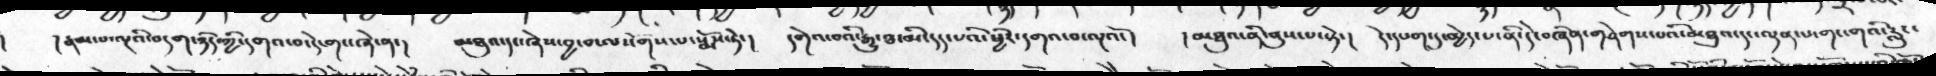།   །རྣམ་པ་ལྔའི་བདག་ཉིད་ཀྱི་དགའ་བ་དེ་གང་ཞེ་ན་།  མཐུའ་དང་ཞེས་བྱ་བ་ལསོགས་པ་སྨོས་ཏེ་།  དགེའ་བའི་རྒྱུ་ཐ་མི་དད་པའི་ཕྱིར་དགའ་བ་ལྔའོ་།  །མཐུའ་ནི་ནུས་པ་སྟེ་།   དེ་དཔག་དུ་མྱེད་པ་ནི་དེ་བཞིན་གཤེགས་པའི་མཐུའ་དང་ལྡན་པ་གང་གའི་རླུང་
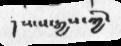། སངས་རྒྱས་ཀྱི་
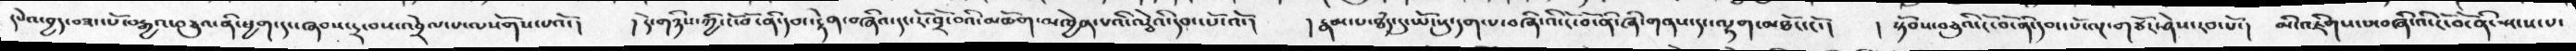དཔེའ་བྱད་བཟང་པོ་བརྒྱའ་བཅུའ་ནི་ཕྱག་དང་ཞབས་དྲ་བས་འབྲེལ་པ་ལསོགས་པའོ་།   །དེ་གཉིས་ཀྱི་ངོ་བོ་ནི་དབང་རྟེན་བཞིའ་དང་རོ་བྲོ་བའི་མཆོག་མཁྱེན་པའི་ལྕེའི་དབང་པོ་འོ་།  །རྣམ་པ་ཐཾད་དུ་ཡོངསུ་དག་པ་བཞི་འི་ངོ་བོ་ནི་ཞི་གནས་དང་ལྷག་མཐོང་ངོ་།   །སྟོབས་བཅུའི་ངོ་བོ་ནི་དབང་པོ་ལྔ་གཙོར་ཤེས་རབ་པོ་།   མི་འཇིགས་པ་བཞི་འི་ངོ་བོ་ནི་སྤངས་པ་
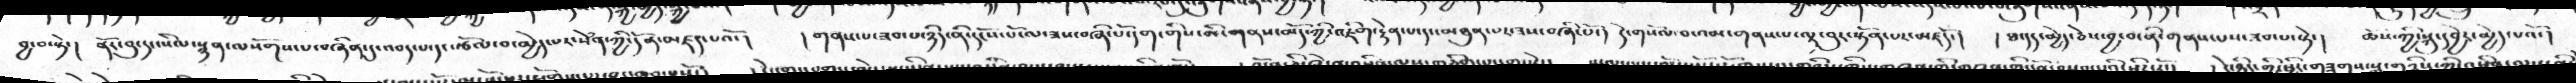བྱ་བ་སྟེ་།  ནོར་བུ་དང་སིལ་སྙན་ལསོགས་པ་བཞིན་དུ་འབད་པ་དང་རྩོལ་བ་མྱེད་པར་སེཾན་ཀྱི་དོན་མཛད་པའོ་།   །གནས་པ་ཟབ་པ་ཉིད་ནི་དངོས་པོ་ལ་ཟས་བཞི་པོ་དག་གིས་མི་གནས་མོད་ཀྱི་འཇིག་རྟེན་པ་དང་མཐུན་པར་ཟས་བཞི་པོ་།   དེ་གསོལ་བ་འམ་གནས་པ་ལྟ་བུར་སྟོན་པར་མཛདོ་།   །ཐ་དད་མྱེད་ཅེས་བྱ་བ་ནི་གནས་པས་ཟབ་པ་སྟེ་།   ཆོས་ཀྱི་སྐུ་དབྱེར་མྱེད་པའོ་།
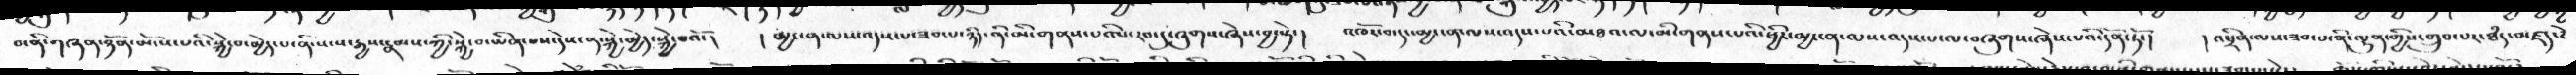བ་ནི་གཞན་ཉོན་མོངས་པའི་སྐྱེ་པ་མྱེད་པ་ནི་སངས་རྒྱས་རྣམས་ཀྱི་སྐྱེ་བ་ཡིན་པས་དེས་ན་སྐྱེ་མྱེད་སྐྱེ་བའོ་།   །མྱ་ངན་ལས་འདས་པ་ཟབ་པ་ཉིད་ནི་མི་གནས་པ་འིཔ་རབ་དུ་ཞུགས་ཞེས་བྱ་སྟེ་།  འཁོར་བ་དང་མྱ་ངན་ལས་འདས་པའི་མཐའ་ལ་མི་གནས་པའི་ཕྱིར་མྱ་ངན་ལས་འདས་པ་ལ་བཞུགས་ཞེས་པའི་དོན་ཏོ་།  འཕྲིན་ལས་ཟབ་པ་ནི་ལྷུན་གྱིས་གྲུབ་པར་ཐཾད་མཛད་དོ
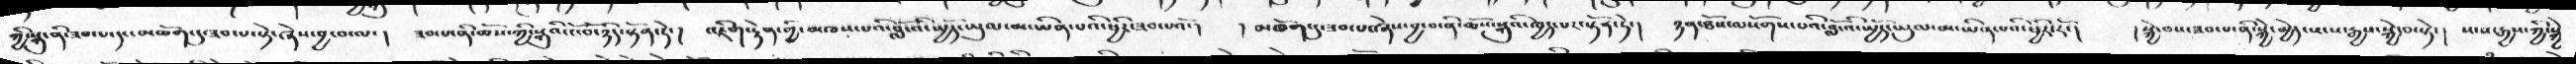ཀྱི་སྐུ་ནི་ཟབ་པ་དང་མཆོག་དུ་ཟབ་པ་སྟེ་ཞེས་བྱ་བ་ལ་།   ཟབ་པ་ནི་ཆོས་ཀྱི་སྐུའི་ངོ་བོ་ཉིད་སྟོན་ཏེ་།  འཇིག་རྟེན་གྱི་མཁས་པའི་བློ་འི་སྤྱོད་ཡུལ་མ་ཡིན་པའི་ཕྱིར་ཟབ་པའོ་།   །མཆོག་དུ་ཟབ་པ་ཞེས་བྱ་བ་ནི་ཆོས་སྐུའི་ཁྱད་པར་སྟོན་ཏེ་།  ཉན་ཐོས་ལསོགས་པའི་བློའི་སྤྱོད་ཡུལ་མ་ཡིན་པའི་ཕྱིར་རོ་།  །སྐྱེ་བས་ཟབ་པ་ནི་སྐྱེ་མྱེད་སངས་རྒྱས་སྟེ་།  སངས་རྒྱས་ཀྱི་སྐྱེ་
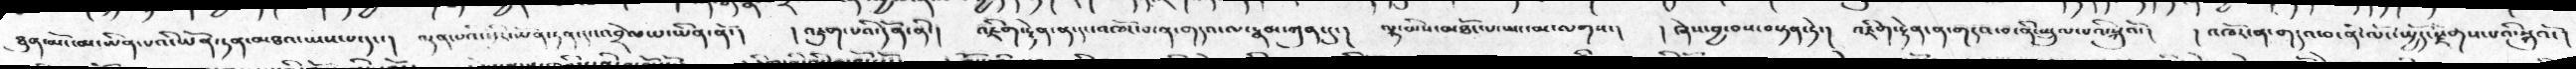ཐུན་མོང་མ་ཡིན་པའི་ཡོན་ཏན་མཐའ་ཡས་པ་དང་།  འདུན་པའི་ཕྱིར་ཡོན་ཏན་དང་འབྲེལ་པ་ཡིན་ནོ་།  །འཇུག་པའི་དོན་ནི་།  འཇིག་རྟེན་ན་དང་འཁོར་བ་ན་གདའ་ལ་རྣམ་ཀུན་དུ་།  ལྷ་ཡིས་མཐོང་པ་ཡང་མ་ལགས།  །ཞེས་བྱ་བས་བསྟན་སྟེ་།  འཇིག་རྟེན་ན་གདའ་བ་ནི་སྤྲུལ་པའི་སྐུའོ་།   །འཁོར་ན་གདའ་བ་ནི་ལོང་སྤྱོད་རྫོགས་པའི་སྐུའོ་།
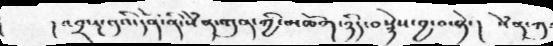།  འབྲ་རྔ་ནའི་དོན་དོན་ནི་སེཾན་ཀུན་ཀྱི་མཆོག་ཉིད་བསྙེས་བྱ་བ་སྟེ་།  སེཾན་ཀུན
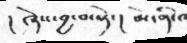།ཞེས་བྱ་བ་སྟེ་།    མེ་ནི་ལ
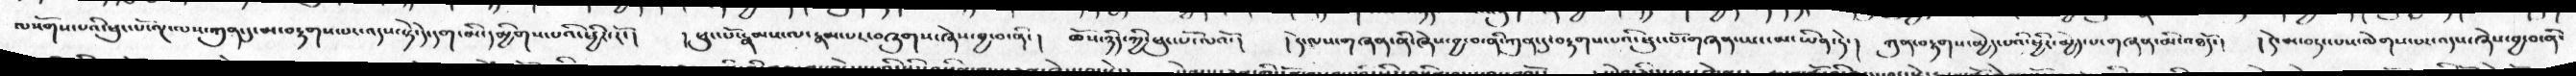ལསོགས་པའི་ཕུང་པོ་ལྔ་ལས་ཀུན་དུ་མ་བརྟགས་ཡང་འདས་སྟེ་དེ་དག་མི་དམྱིགས་པའི་ཕྱིར་རོ་།   །ཕུང་པོ་རྣམས་ལ་རྣམ་པར་བཞུགས་ཞེས་བྱ་བ་ནི་།  ཆོས་ཉིད་ཀྱི་ཕུང་པོའོ་།  །དེ་ལས་གཞན་ནི་ཞེས་བྱ་བ་ནི་ཀུན་དུ་བརྟགས་པའི་ཕུང་པོ་གཞན་ཡང་མ་ཡིན་ཏེ་།   ཀུན་བརྟགས་མྱེད་པའི་ཕྱིར་མྱེད་པ་གཞན་མི་འཐདོ་།   །དེ་ལ་བཏང་པས་ལེགས་པར་འདས་ཞེས་བྱ་བ་ནི་
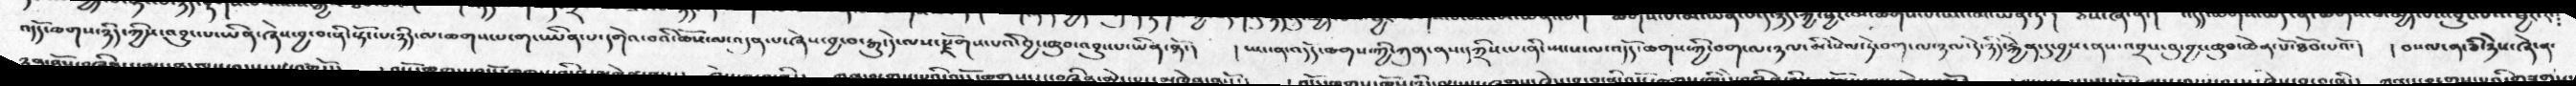འདོད་ཆགས་ཉིད་ཀྱིས་འབྱུང་པ་ཡིན་ཞེས་བྱ་བ་ནི་སྟོང་པ་ཉིད་ལ་ཆགས་པ་གང་ཡིན་པ་དགེའ་བའི་ཆོས་ལ་འདུན་པ་ཞེས་བྱ་བ་རྒྱུ་དེ་ལས་རྫོགས་པའི་བྱང་ཆུབ་འབྱུང་པ་ཡིན་སྟེ་།   ཡང་ན་འདོད་ཆགས་ཀྱི་ཀུན་ནས་དཀྲིས་པ་ནི་སྤངས་ལ་འདོད་ཆགས་ཀྱི་བག་ལ་ཉལ་མི་སེལ་ཏེ་བག་ལ་ཉལ་དེ་ཉིད་རྐྱེན་དུ་བྱས་ནས་འབྲས་བུ་བྱང་ཆུབ་ཆེན་པོ་ཐོབ་པའོ་།  །བསལ་ན་ཅི་ཉེས་ཞེ་ན་
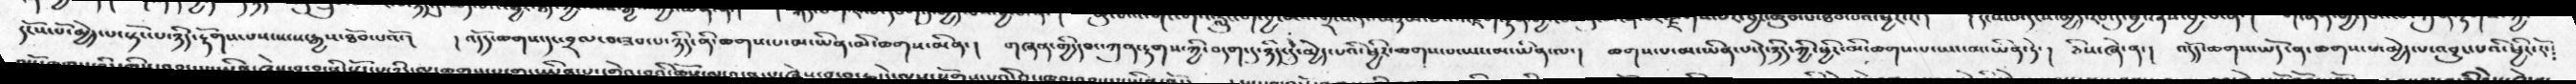དངོས་པོ་མྱེད་པ་སྟོང་པ་ཉིད་རྟོགས་པས་སངས་རྒྱས་ཐོབ་པའོ་།   །འདོད་ཆགས་དང་བྲལ་བ་ཟབ་པ་ཉིད་ནི་ཆགས་པ་མ་ཡིན་མི་ཆགས་མིན་།   གཞན་གྱི་དབང་ཀུན་རྟགས་ཀྱི་བདག་དུ་ཉིད་དེ་མྱེད་པའི་ཕྱིར་ཆགས་པ་ཡང་མ་ཡིན་ལ་།   ཆགས་པ་མ་ཡིན་པ་དེ་ཉིད་ཀྱི་ཕྱིར་མི་ཆགས་པ་ཡང་མ་ཡིན་ཏེ་།  ཅིས་ཞེ་ན་།   འདོད་ཆགས་ཡོད་ན་ཆགས་པ་མྱེད་པ་འབྱུང་པའི་ཕྱིར་རོ་
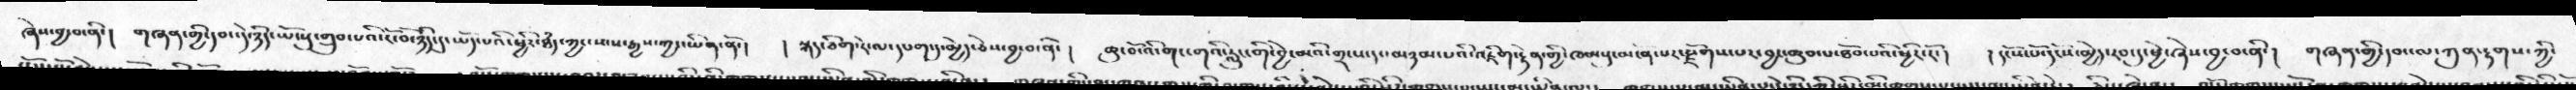ཞེས་བྱ་བ་ནི་།   གཞན་གྱི་དབང་དེ་ཉིད་ཡོངསུ་གྲུབ་པའི་ངོ་བོ་ཉིད་དུ་ཡོད་པའི་ཕྱིར་ཐཾད་ཀྱང་སངས་རྒྱས་ཀྱང་ཡིན་ནོ་།   སྐད་ཅིག་དེ་ལ་དཔག་དུ་མྱེད་ཅེས་བྱ་བ་ནི་།   ཆུ་བོ་འི་གང་གའི་རླུང་གི་བྱེ་མའི་གྲངས་དང་མཉམ་པའི་འཇིག་རྟེན་གྱི་ཁམསུ་མངོན་པར་རྫོགས་པར་བྱང་ཆུབ་པ་ཐོབ་པའི་ཕྱིར་རོ་།   །དངོས་པོ་དངོས་མྱེད་རབ་དུ་ཕྱེ་ཞེས་བྱ་བ་ནི་།   གཞན་གྱི་དབང་ལ་ཀུན་རྟགས་ཀྱི་
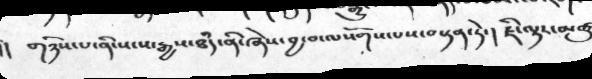།  གཉིས་པ་ནི་སངས་རྒྱས་ཐཾད་ནི་ཞེས་བྱ་བ་ལསོགས་པས་བསྟན་ཏེ་།  ཇི་ལྟར་མཚུ
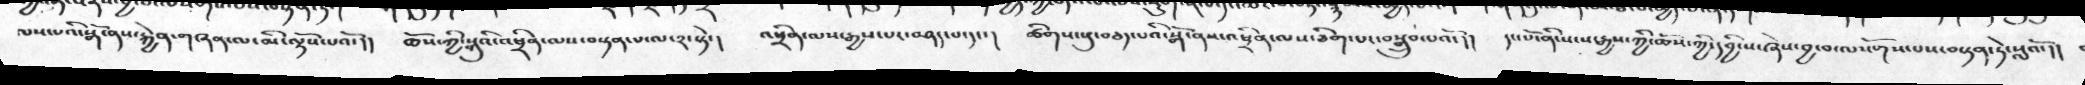ལས་པའི་སྒོ་ནས་རྐྱེན་གཞན་ལ་མི་ལྟོས་པའོ་།།   ཆོས་ཀྱི་སྐུའི་འཕྲིན་ལས་བསྟན་པ་ལ་༢་སྟེ་།   འཕྲིན་ལས་རྒྱས་པར་བཤད་པ་དང་།   ཚིགས་སུ་བཅད་པའི་སྒོ་ནས་འཕྲིན་ལས་ཅིག་པར་བསྒྲུབ་པའོ་།།   དང་པོ་ནི་སངས་རྒྱས་ཀྱི་ཆོས་ཀྱིདབྱིངས་ཞེས་བྱ་བ་ལསོགས་པས་བསྟན་ཏེ་སླའོ་།།
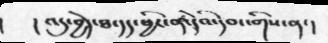།      ། འདུ་བྱེད་ཐ་དད་ཕྱིར་ན་དེའི་དབང་གིས་ན་།
